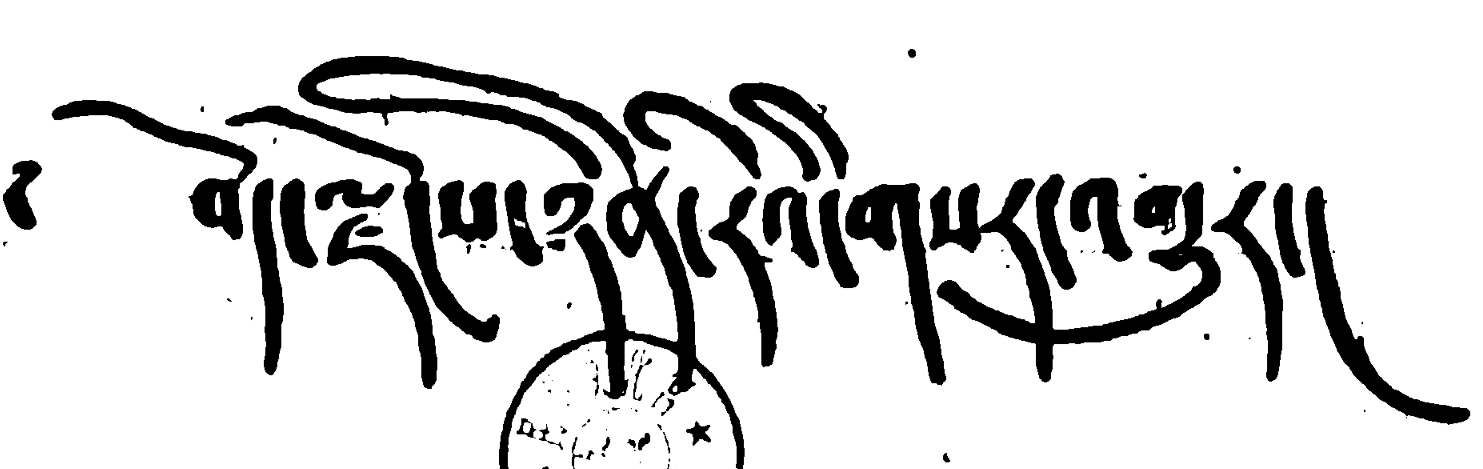༄ བོད་ལྗོངས་ཉིན་རེའི་གསར་འགྱུར།
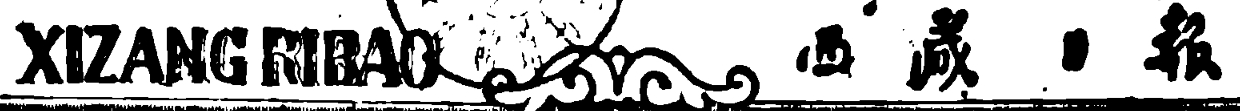XIZANG RIBAO 西 藏 日 報
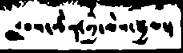རླབས་ཆེན་གྱི་མེས་རྒྱལ།
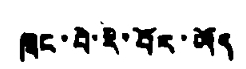ཁྲང་པེ་རི་བོར་ཡོད
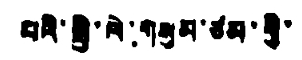པའི་སྤྱི་ལེ་གསུམ་ཙམ་གྱི་
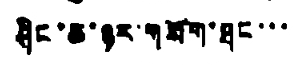ཞིང་ཆ་ཉར་གསོག་ཐང་་་
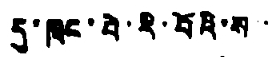དུ་ཁྲང་པེ་རི་བོའི་ས་་
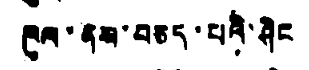ཁུལ་ནས་བཅད་པའི་ཤིང
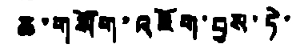ཆ་གསོག་འཇོག་བྱས་ཏེ་
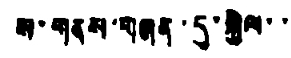ས་གནས་གཞན་དུ་སྐྱེལ་་
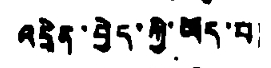འདྲེན་བྱེད་ཀྱི་ཡོད་པ།
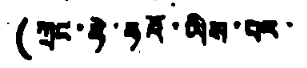(ཀྲང་ཧེ་ཧའོ་ཡིས་པར་
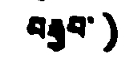བརྒྱབ་)
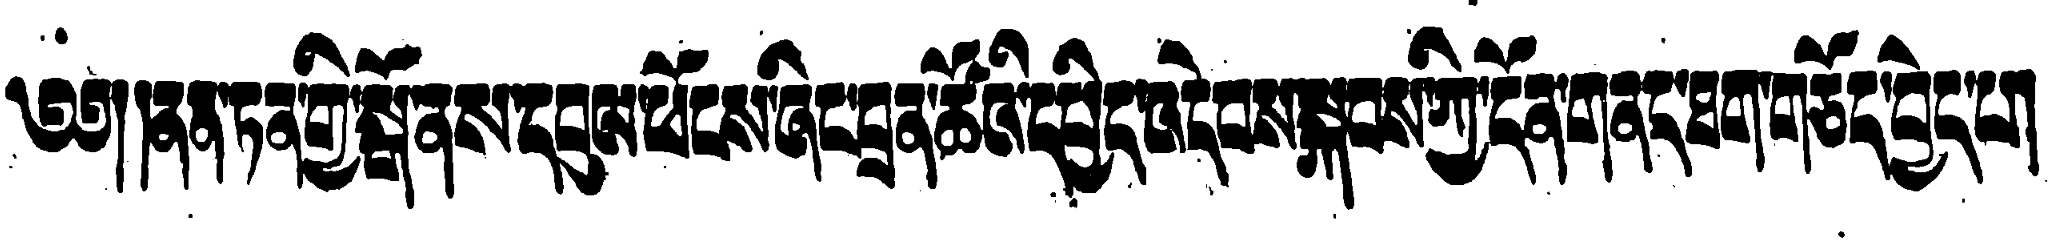༄༅།།ནན་ཏན་གྱི་སྒོ་ནས་དབུལ་ཕོངས་ཞིང་བྲན་ཚོའི་དཔྱིད་འདེབས་སྐབས་ཀྱི་དོན་གནད་ཐག་གཅོད་བྱེད་པ།
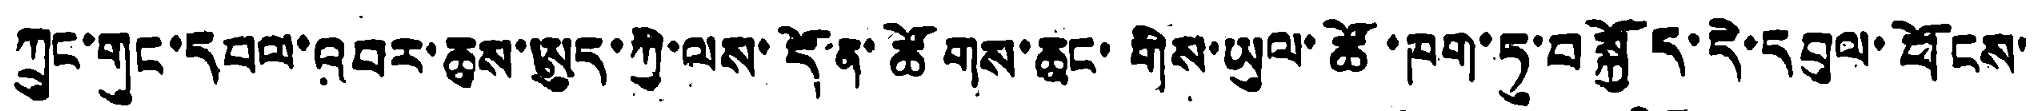ཀྲུང་གུང་དཔལ་འབར་ཆུས་ཨུད་ཀྱི་ལས་དོན་ཚོགས་ཆུང་གིས་ཡུལ་ཚོ་ཁག་ཏུ་བསྐྱོད་དེ་དབུལ་ཕོངས་
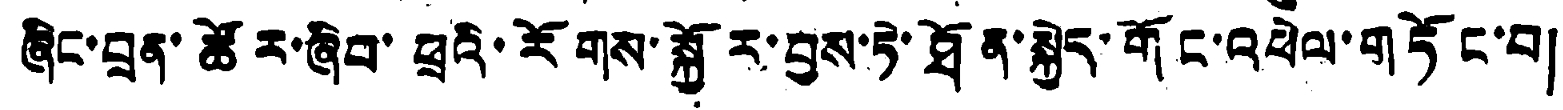ཞིང་བྲན་ཚོར་ཞིབ་ཕྲའི་རོགས་སྐྱོར་བྱས་ཏེ་ཐོན་སྐྱེད་གོང་འཕེལ་གཏོང་བ།
